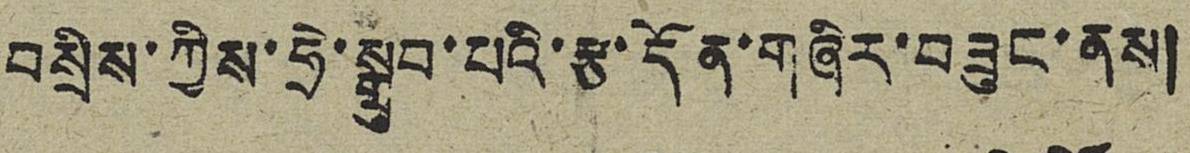བསྲིས་ཀྱིས་ཧྲེ་སྒྲུབ་པའི་རྩ་དོན་གཞིར་བཟུང་ནས།
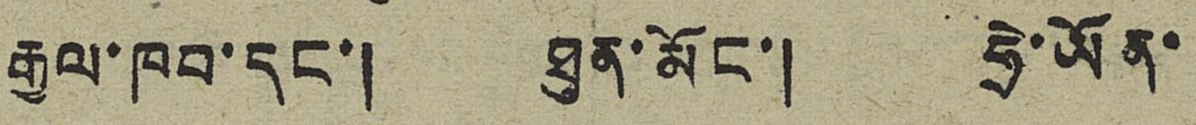རྒྱལ་ཁབ་དང་། ཐུན་མོང་། ཧྲེ་ཡོན་
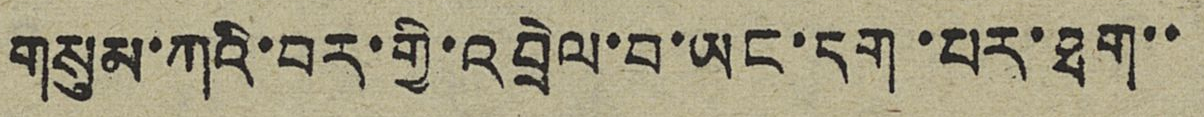གསུམ་ཀའི་བར་གྱི་འབྲེལ་བ་ཡང་དག་པར་ཐག་་
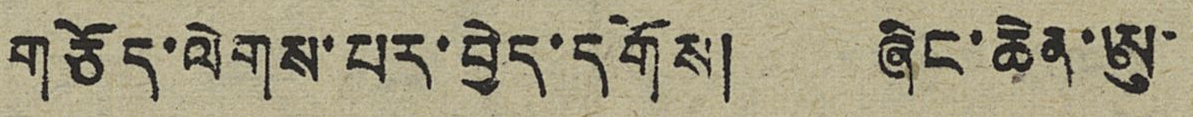གཅོད་ལེགས་པར་བྱེད་དགོས། ཞིང་ཆེན་ཨུ་
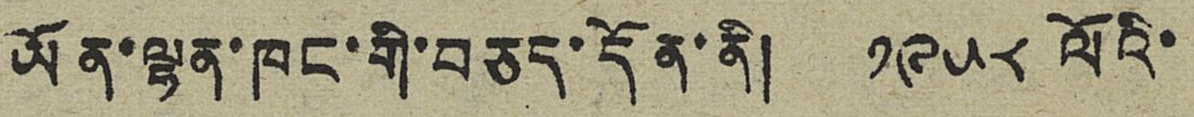ཡོན་ལྷན་ཁང་གི་བཅད་དོན་ནི། ༡༩༥༨ ལོའི་
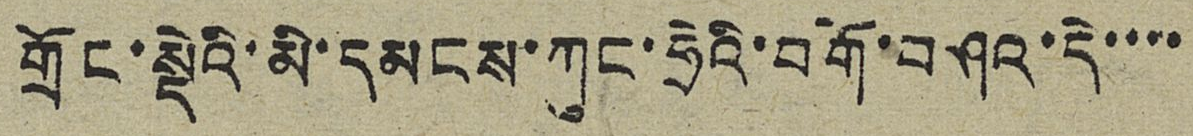གྲོང་སྡེའི་མི་དམངས་ཀུང་ཧྲེའི་བགོ་བཤའ་དེ་་་་
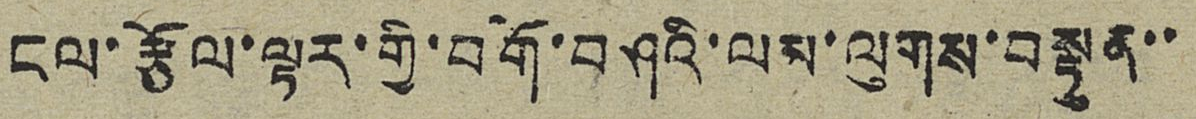ངལ་རྩོལ་ལྟར་གྱི་བགོ་བཤའི་ལམ་ལུགས་བསྟུན་་
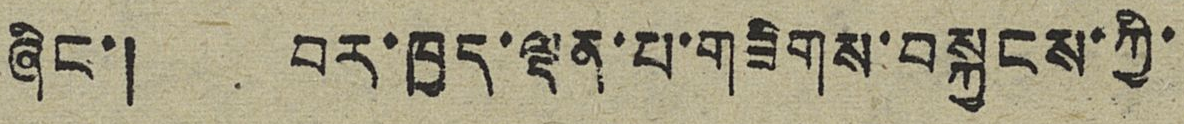ཞིང་། བར་ཁྱད་ལྡན་པ་གཟིགས་བསྐྱངས་ཀྱི་
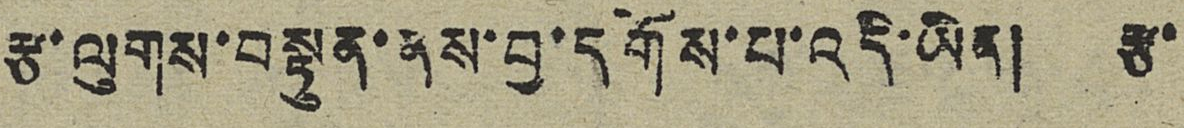རྩ་ལུགས་བསྟུན་ནས་བྱ་དགོས་པ་འདི་ཡིན། རྩ་
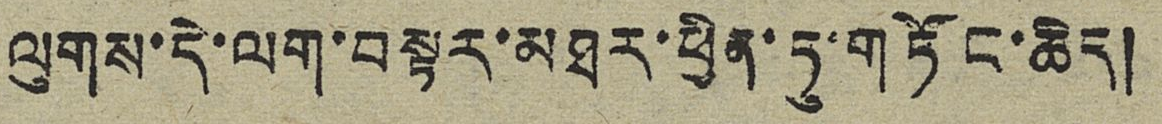ལུགས་དེ་ལག་བསྟར་མཐར་ཕྱིན་ཏུ་གཏོང་ཆེད།
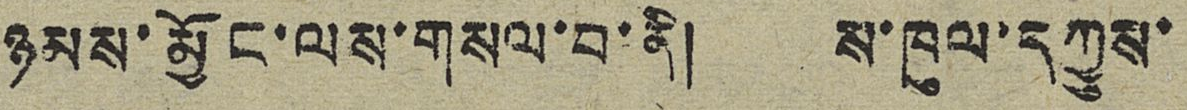ཉམས་མྱོང་ལས་གསལ་བ་ནི། ས་ཁུལ་དཀྱུས་
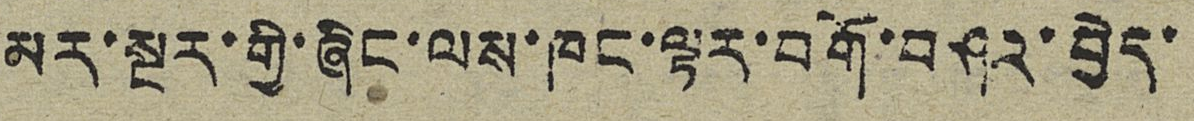མར་སྔར་གྱི་ཞིང་ལས་ཁང་ལྟར་བགོ་བཤའ་བྱེད་
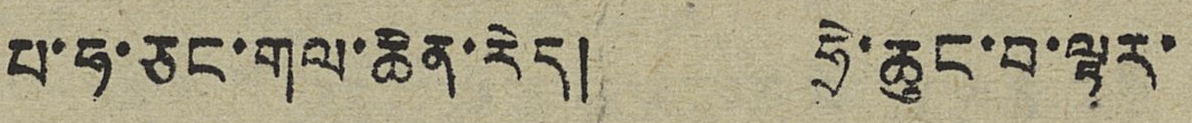པ་ཧ་ཅང་གལ་ཆེན་རེད། ཧྲེ་ཆུང་བ་ལྟར་
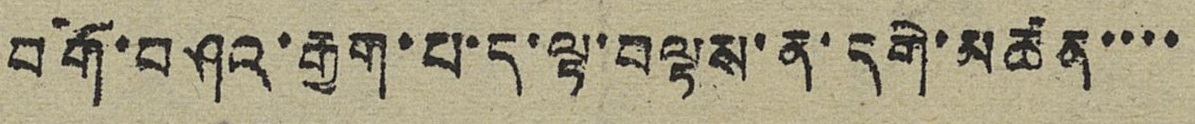བགོ་བཤའ་རྒྱག་པ་ད་ལྟ་བལྟས་ན་དགེ་མཚན་་་་
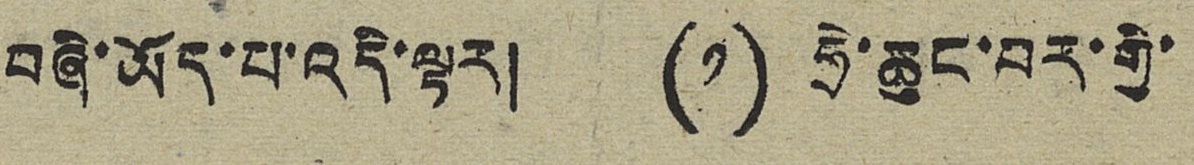བཞི་ཡོད་པ་འདི་ལྟར། (༡) ཧྲེ་ཆུང་བར་གྱི་
